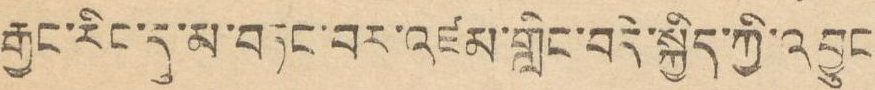རྒྱང་རིང་དུ་མ་བཏང་བར་འཛམ་གླིང་བདེ་སྐྱིད་ཀྱི་འབྱུང
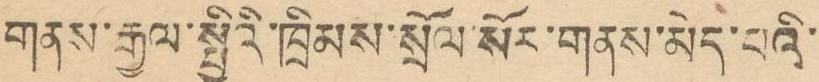གནས་རྒྱལ་སྤྱིའི་ཁྲིམས་སྲོལ་སོར་གནས་མེད་པའི་
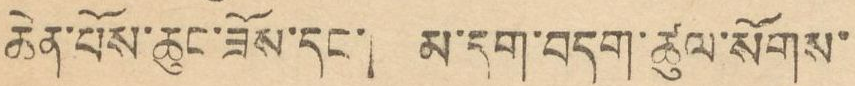ཆེན་པོས་ཆུང་ཟོས་དང་། མ་དག་བདག་ཚུལ་སོགས་
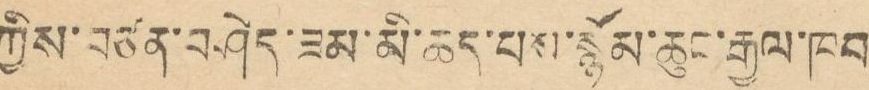ཀྱིས་བཙན་བཤེད་ཟམ་མི་ཆད་པས་སྙོམ་ཆུང་རྒྱལ་ཁབ
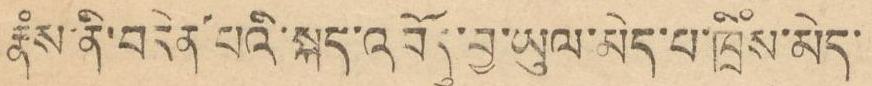རྣཾས་ནི་བདེན་པའི་སྐད་འབོདུ་བྱ་ཡུལ་མེད་པ་ཁྲིཾས་མེད་
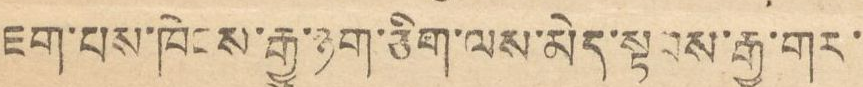ཇག་པས་ཁེངས་རྒྱུ་ཉག་ཅིག་ལས་མེད་སྟབས་རྒྱ་གར་
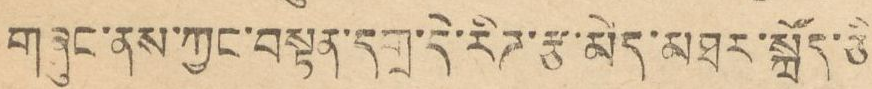གཞུང་ནས་ཀྱང་བསྟན་དགྲ་རིཊ་རྩ་མེད་མཐར་སྐྲོད་ཅི་
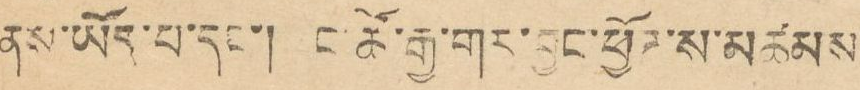ནས་ཡོད་པ་དང་། ང་ཚོ་རྒྱ་གར་བྱང་ཕྱོཊ་ས་མཚམས་
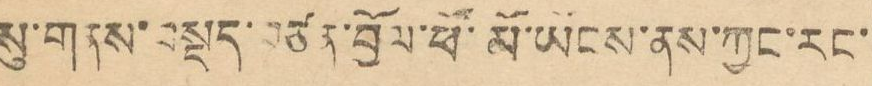སུ་གནས་བསྡོད་བཙན་བྱོལ་ཕོ་མོ་ཡོངས་ནས་ཀྱང་རང་
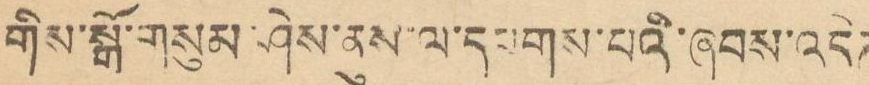གིས་སྒོ་གསུམ་ཤེས་ནུས་ལ་དཔགས་པའི་ཞབས་འདེཊ
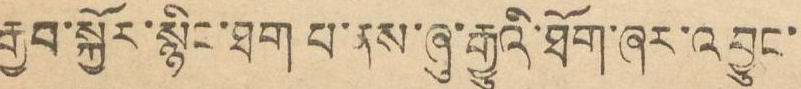རྒྱབ་སྐྱོར་སྙིང་ཐག པ་ནས་ཞུ་རྒྱུའི་ཐོག་ཞར་འབྱུང་
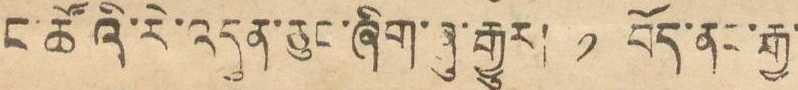ང་ཚོའི་རེ་འདུན་ཅུང་ཞིག་ཞུ་རྒྱུར། ༡ བོད་ནང་རྒྱ་
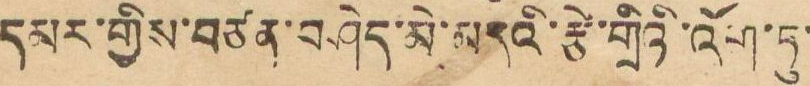དམར་གྱིས་བཙན་བཤེད་མེ་མདའི་རྩེ་གྲིའི་འོག་ཏུ་
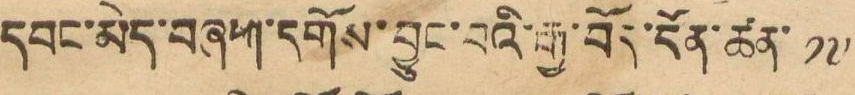དབང་མེད་བཞག་དགོས་བྱུང་བའི་རྒྱ་བོད་དོན་ཚན་ ༡༧
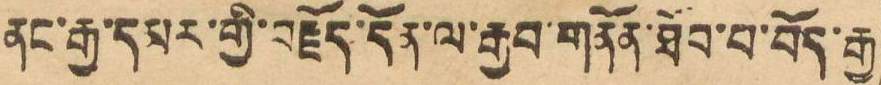ནང་རྒྱ་དམར་གྱི་བརྗོད་དོན་ལ་རྒྱབ་གནོན་ཐེབ་བ་བོད་རྒྱ
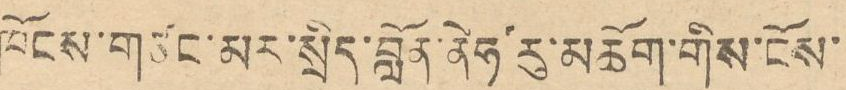ཁོངས་གཙང་མར་སྲིད་བློན་ནེཧ་རུ་མཆོག་གིས་ངོས་
